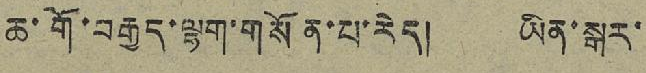ཆ་གོ་བརྒྱད་ལྷག་གསོན་པ་རེད། ཡིན་སྒར་
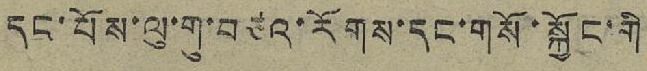དང་པོས་ལུ་གུ་བཙའ་རོགས་དང་གསོ་སྐྱོང་གི
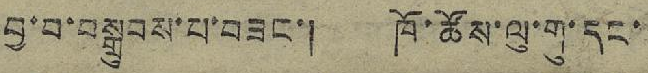བྱ་བ་བསྒྲུབས་པ་བཟང་། ཁོ་ཚོས་ལུ་གུ་དང་
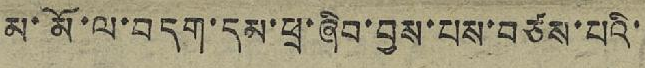མ་མོ་ལ་བདག་དམ་ཕྲ་ཞིབ་བྱས་པས་བཙས་པའི་
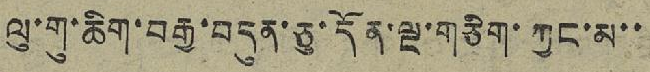ལུ་གུ་ཆིག་བརྒྱ་བདུན་ཅུ་དོན་ལྔ་གཅིག་ཀྱང་མ་་
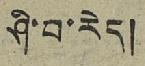ཤི་བ་རེད།
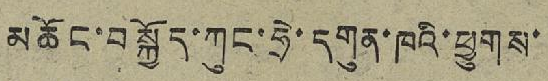མཆོང་བསྐྱོད་ཀུང་ཧྲེ་དགུན་ཁའི་ཕྱུགས་
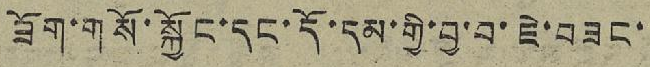ཟོག་གསོ་སྐྱོང་དང་དོ་དམ་གྱི་བྱ་བ་ཇེ་བཟང་
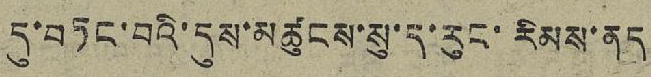དུ་བཏང་བའི་དུས་མཚུངས་སུ་ད་རུང་རིམས་ནད
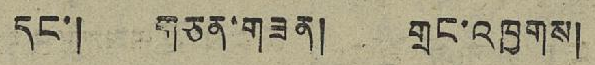དང་། གཅན་གཟན། གྲང་འཁྱགས།
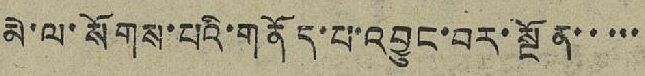མེ་ལ་སོགས་པའི་གནོད་པ་འབྱུང་བར་སྔོན་་་་་
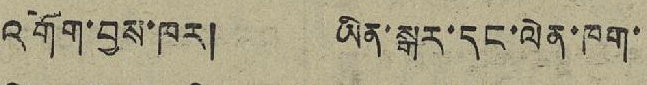འགོག་བྱས་ཁར། ཡིན་སྒར་དང་ལེན་ཁག་
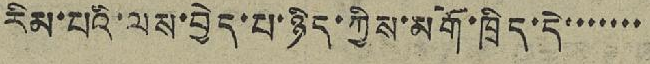རིམ་པའི་ལས་བྱེད་པ་ཉིད་ཀྱིས་མགོ་ཁྲིད་དེ་་་་་་་
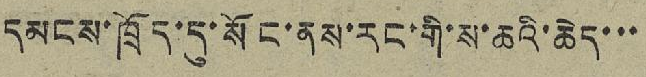དམངས་ཁྲོད་དུ་སོང་ནས་རང་གི་ས་ཆའི་ཆེད་་་
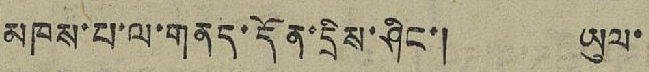མཁས་པ་ལ་གནད་དོན་དྲིས་ཤིང་། ཡུལ་
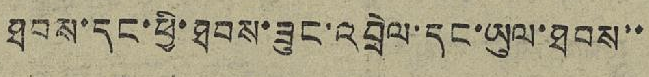ཐབས་དང་ཕྱི་ཐབས་ཟུང་འབྲེལ་དང་ཡུལ་ཐབས་་
